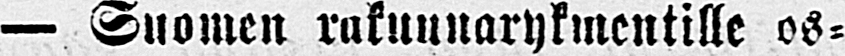— Suomen rakuunnarykmentille os-
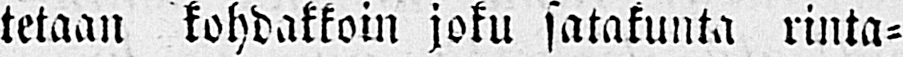tetaan kohdakkoin joku satakunta rinta-
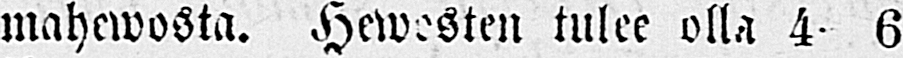mahewosta. Hewosten tulee olla 4. 6
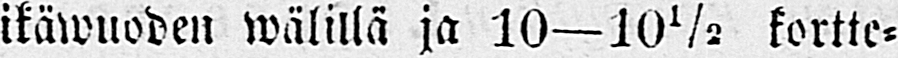ikäwuoden wälillä ja 10—l0½- kortte-
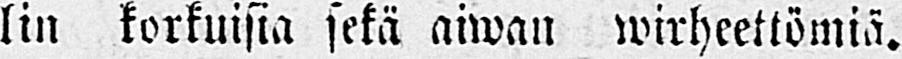lin korkuisia sekä aiwan wirheettömiä.
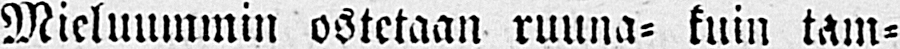Mieluummin ostetaan ruuna- kuin tam-
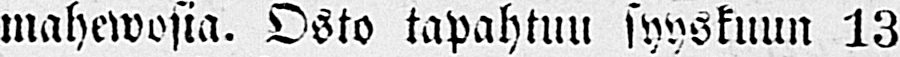mahewosia. Osto tapahtuu syyskuun 13
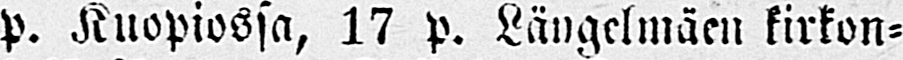p. Kuopiossa, 17 p. Längelmäen kirkon-
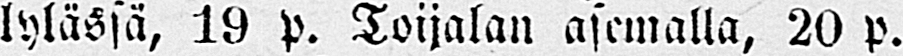lylässä, 10 p. Toijalan asemalla, 20 p.
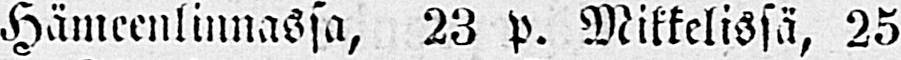Hämeenlinnassa, 23 p. Mikkelissä, 25
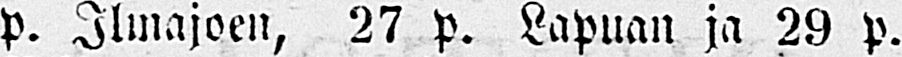p. Ilmajoen, 27 p. Lapuan ja 29 p.
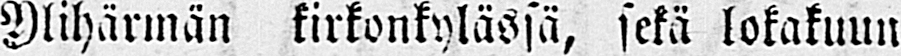Ylihärmän kirkonkylässä, sekä lokakuun
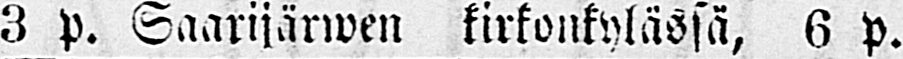3 p. Saarijärwen kirkonkylässä, 6 p.
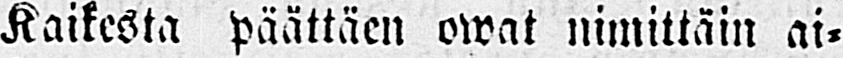Kaikesta päättäen owat nimittäin ai-
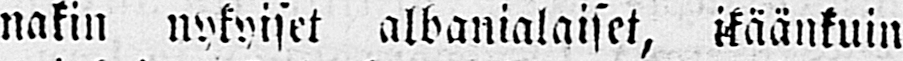nakin nykyiset albanialaiset, ikäänkuin
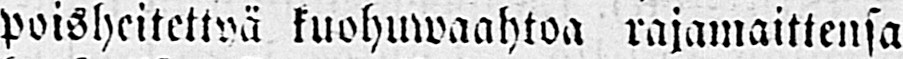poisheitettyä kuohuwaahtoa rajamaittensa
